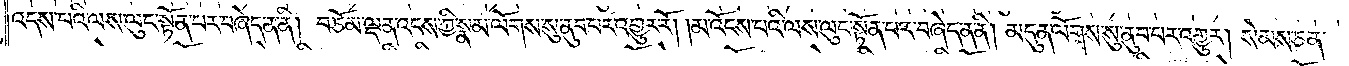འདས་པའི་ལས་ལུང་སྟོན་པར་བཞེད་ན་ནི། བཅོམ་ལྡན་འདས་ཀྱི་སྣམ་ལོགས་སུ་ནུབ་པར་འགྱུར་རོ། །མ་འོངས་པའི་ལས་ལུང་སྟོན་པར་བཞེད་ན་ནི། མདུན་ལོགས་སུ་ནུབ་པར་འགྱུར། སེམས་ཅན་
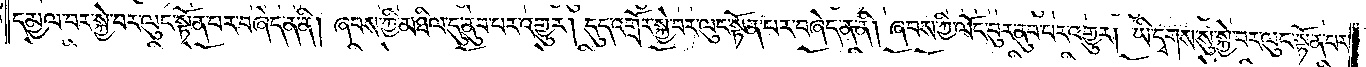དམྱལ་བར་སྐྱེ་བར་ལུང་སྟོན་པར་བཞེད་ན་ནི། ཞབས་ཀྱི་མཐིལ་དུ་ནུབ་པར་འགྱུར། དུད་འགྲོར་སྐྱེ་བར་ལུང་སྟོན་པར་བཞེད་ན་ནི། ཞབས་ཀྱི་ལོང་བུར་ནུབ་པར་འགྱུར། ཡི་དྭགས་སུ་སྐྱེ་བར་ལུང་སྟོན་པར་
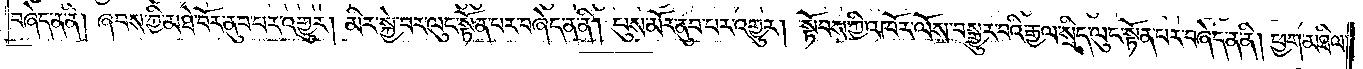བཞེད་ན་ནི། ཞབས་ཀྱི་མཐེ་བོར་ནུབ་པར་འགྱུར། མིར་སྐྱེ་བར་ལུང་སྟོན་པར་བཞེད་ན་ནི། བུས་མོར་ནུབ་པར་འགྱུར། སྟོབས་ཀྱི་འཁོར་ལོས་བསྒྱུར་བའི་རྒྱལ་སྲིད་ལུང་སྟོན་པར་བཞེད་ན་ནི། ཕྱག་མཐིལ་
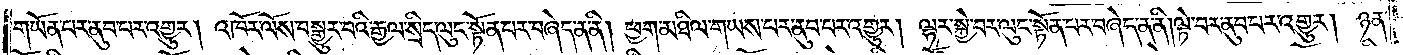གཡོན་པར་ནུབ་པར་འགྱུར། འཁོར་ལོས་བསྒྱུར་བའི་རྒྱལ་སྲིད་ལུང་སྟོན་པར་བཞེད་ན་ནི། ཕྱག་མཐིལ་གཡས་པར་ནུབ་པར་འགྱུར། ལྷར་སྐྱེ་བར་ལུང་སྟོན་པར་བཞེད་ན་ནི། ལྟེ་བར་ནུབ་པར་འགྱུར། ཉན་
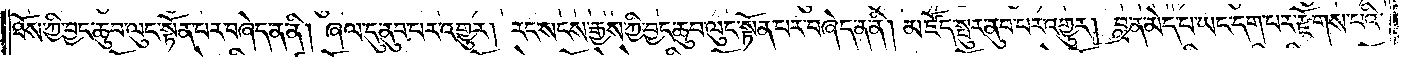ཐོས་ཀྱི་བྱང་ཆུབ་ལུང་སྟོན་པར་བཞེད་ན་ནི། ཞལ་དུ་ནུབ་པར་འགྱུར། རང་སངས་རྒྱས་ཀྱི་བྱང་ཆུབ་ལུང་སྟོན་པར་བཞེད་ན་ནི། མཛོད་སྤུར་ནུབ་པར་འགྱུར། བླ་ན་མེད་པ་ཡང་དག་པར་རྫོགས་པའི་
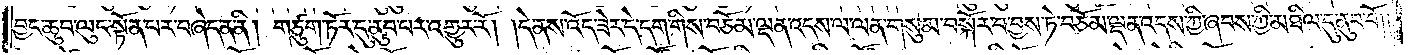བྱང་ཆུབ་ལུང་སྟོན་པར་བཞེད་ན་ནི། གཙུག་ཏོར་དུ་ནུབ་པར་འགྱུར་རོ། །དེ་ནས་འོད་ཟེར་དེ་དག་གིས་བཅོམ་ལྡན་འདས་ལ་ལན་གསུམ་བསྐོར་བ་བྱས་ཏེ་བཅོམ་ལྡན་འདས་ཀྱི་ཞབས་ཀྱི་མཐིལ་དུ་ནུབ་བོ། །
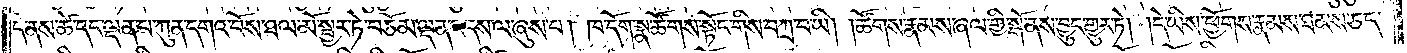དེ་ནས་ཚེ་དང་ལྡན་པ་ཀུན་དགའ་བོས་ཐལ་མོ་སྦྱར་ཏེ་བཅོམ་ལྡན་འདས་ལ་ཞུས་པ། ཁ་དོག་སྣ་ཚོགས་སྟོང་གིས་བཀྲ་བ་ཡི། །ཚོགས་རྣམས་ཞལ་གྱི་སྒོ་ནས་བྱུང་གྱུར་ཏེ། །དེ་ཡིས་ཕྱོགས་རྣམས་ཐམས་ཅད་
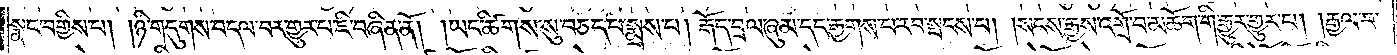སྣང་བགྱིས་པ། །ཉི་གདུགས་བདལ་བར་གྱུར་པ་ཇི་བཞིན་ནོ། །ཡང་ཚིགས་སུ་བཅད་པ་སྨྲས་པ། རྒོད་བྲལ་ཞུམ་དང་རྒྱགས་པ་རབ་སྤངས་པ། །སངས་རྒྱས་འགྲོ་བ་མཆོག་གི་རྒྱུར་གྱུར་པ། །རྒྱལ་བ་
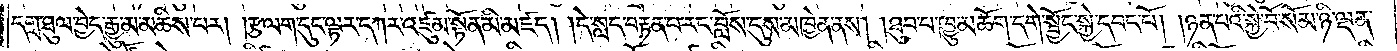དགྲ་ཐུལ་བྱེད་རྒྱུ་མ་མཆིས་པར། །རྩ་ལག་དུང་ལྟར་དཀར་འཛུམ་སྟོན་མི་མཛད། །དེ་སླད་བརྟན་པ་རང་བློས་དུས་མཁྱེན་ནས། །ཐུབ་པ་ཁྱུ་མཆོག་དགེ་སྦྱོང་སྐྱེ་དབང་པོ། །ཉན་པའི་སྐྱེ་བོ་སོམ་ཉི་ལྡན་
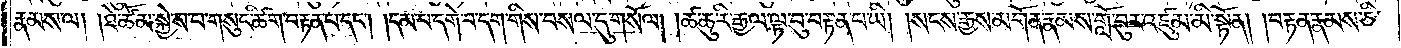རྣམས་ལ། །ཐེ་ཚོམ་སྐྱེས་པ་གསུང་ཚིག་བརྟན་པ་དང༌། །དམ་པ་དགེ་བ་དག་གིས་བསལ་དུ་གསོལ། །ཚ་ཆུ་རི་རྒྱལ་ལྟ་བུ་བརྟན་པ་ཡི། །སངས་རྒྱས་མགོན་རྣམས་གློ་བུར་འཛུམ་མི་སྟོན། །བརྟན་རྣམས་ཅི་
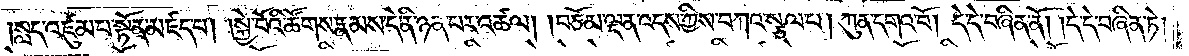སླད་འཛུམ་པ་སྟོན་མཛད་པ། །སྐྱེ་བོའི་ཚོགས་རྣམས་དེ་ནི་ཉན་པར་འཚལ། །བཅོམ་ལྡན་འདས་ཀྱིས་བཀའ་སྩལ་པ། ཀུན་དགའ་བོ། དེ་དེ་བཞིན་ནོ། །དེ་དེ་བཞིན་ཏེ།
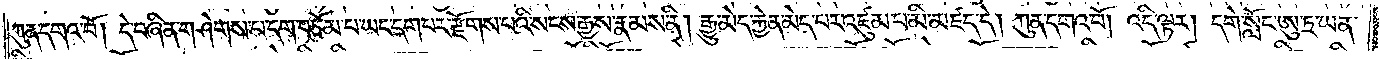ཀུན་དགའ་བོ། དེ་བཞིན་གཤེགས་པ་དག་བཅོམ་པ་ཡང་དག་པར་རྫོགས་པའི་སངས་རྒྱས་རྣམས་ནི། རྒྱུ་མེད་རྐྱེན་མེད་པར་འཛུམ་པ་མི་མཛད་དེ། ཀུན་དགའ་བོ། འདི་ལྟར། དགེ་སློང་ཨུ་ཏྲ་ཡན་
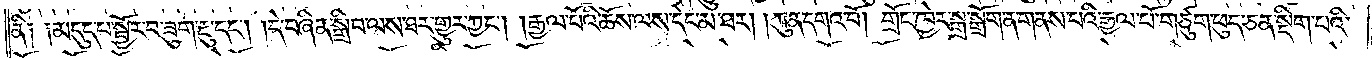ནི༑ ༑མདུད་པ་སྦྱོར་བ་ཟུག་རྔུ་དང༌། །དེ་བཞིན་སྒྲིབ་ལས་ཐར་གྱུར་ཀྱང༌། །རྒྱལ་པོའི་ཆོས་ལས་དེང་མ་ཐར། །ཀུན་དགའ་བོ། གྲོང་ཁྱེར་སྒྲ་སྒྲོག་ན་གནས་པའི་རྒྱལ་པོ་གཙུག་ཕུད་ཅན་སྡིག་པའི་
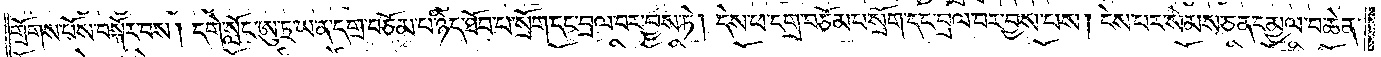གྲོགས་པོས་བསྐོར་བས། དགེ་སློང་ཨུ་ཏྲ་ཡ་ན་དགྲ་བཅོམ་པ་ཉིད་ཐོབ་པ་སྲོག་དང་བྲལ་བར་བྱས་ཏེ། དེས་ཕ་དགྲ་བཅོམ་པ་སྲོག་དང་བྲལ་བར་བྱས་པས། ངེས་པར་སེམས་ཅན་དམྱལ་བ་ཆེན་
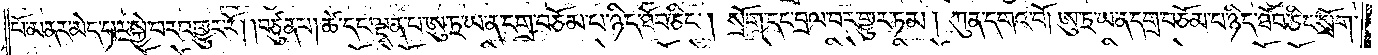པོ་མནར་མེད་པར་སྐྱེ་བར་འགྱུར་རོ། །བཙུན་པ། ཚེ་དང་ལྡན་པ་ཨུ་ཏྲ་ཡ་ན་དགྲ་བཅོམ་པ་ཉིད་ཐོབ་ཅིང༌། སྲོག་དང་བྲལ་བར་གྱུར་ཏམ། ཀུན་དགའ་བོ། ཨུ་ཏྲ་ཡ་ན་དགྲ་བཅོམ་པ་ཉིད་ཐོབ་ཅིང་སྲོག་
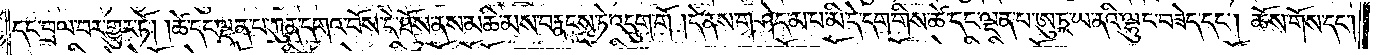དང་བྲལ་བར་གྱུར་ཏོ། །ཚེ་དང་ལྡན་པ་ཀུན་དགའ་བོས་དེ་ཐོས་ནས་མཆིམས་བརྣངས་ཏེ་འདུག་གོ །དེ་ནས་གཤེད་མ་པ་མི་དེ་དག་གིས་ཚེ་དང་ལྡན་པ་ཨུ་ཏྲ་ཡ་ནའི་ལྷུང་བཟེད་དང༌། ཆོས་གོས་དང༌།
